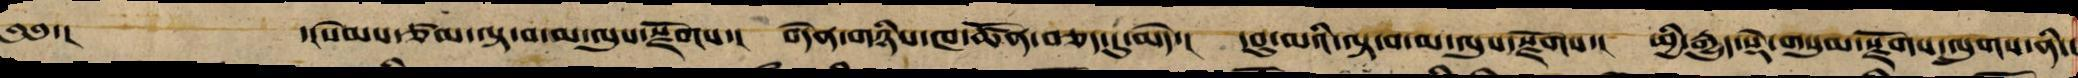༄༅་། ་།སེམས་ཙམ་ལྟ་བ་མ་ལུས་སྫོགས་། བདེན་གཉིས་ཁ་ཚོན་བཅད་དུ་མེད་། དབུ་མའི་ལྟ་བ་མ་ལུས་རྫོགས་། ཕྱི་རྒྱུད་སྡེ་གསུམ་རྫོགས་ལུགས་ནི་།
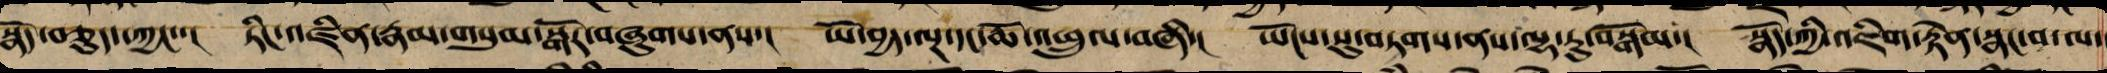སྣོད་བཅུད་ཀྱང་་། ཏིང་འཛིན་རྣམ་གསུམ་སྒོར་བཞུགས་ནས་། ཡོ་བྱད་ལྔ་དང་ཆོ་འཕྲུལ་བཞི་། ཡོངས་སུ་བཏགས་ནས་ལྷ་རུ་བསྒོམ་། སྣོད་ཀྱི་འཇིག་རྟེན་སྣང་བ་ལ་
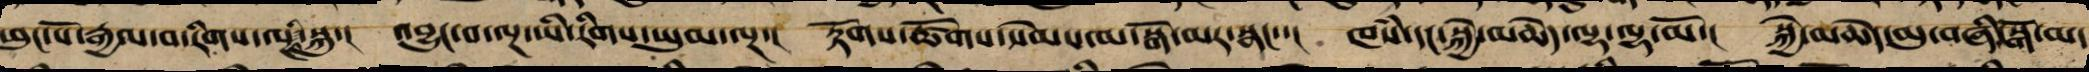ཕུང་པོ་རྒྱལ་བ་རིགས་ལྔའི་སྐུ་། འབྱུང་བ་ལྔ་ནི་རིགས་ཡུམ་ལྔ་། རྟོགས་ཚོགས་སེམས་མར་སྒོ་མར་སྣང་་། ཁཾས་དང་སྐྱེ་མཆེད་ལྷ་ལྷ་མོ་། སྐྱེ་མཆེད་མུ་བཞི་སྒོ་མ་
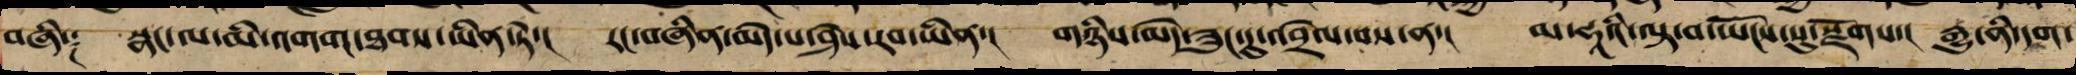བཞི༑ སྣང་ལ་མི་འགོག་ཐབས་ཡིན་ཏེ་། རང་བཞིན་མེད་པ་ཤེས་རབ་ཡིན་། གཉིས་མེད་ཐད་དུ་འབྲེལབཔས་ན་། མ་ཧཱའི་ལྟ་བ་ཡོངས་སུ་སྫོགས། རྒྱུ་ནི་དག་
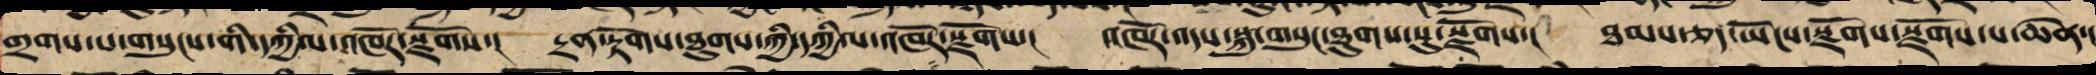གྲག་པ་གསུང་གི་དཀྱིལ་འཁོར་སྫོགས་། དྲན་རྟོགས་ཐུགས་ཀྱི་དཀྱིལ་འཁོར་སྫོགས་། འཁོར་འདས་སྐུ་གསུང་ཐུགས་སུ་སྫོགས་། ཐམས་ཅད་ཡོངས་སྫོགས་སྫོགས་པ་ཆེན་།
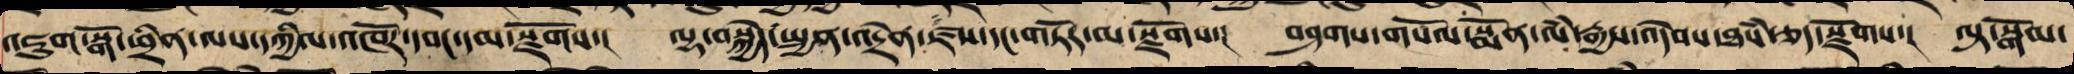འཇུག་སྒོ་ཕྲིན་ལས་དཀྱིལ་འཁོར་དབང་དམ་སྫོགས་། ལྷ་བསྐྱེད་སྤྱན་འདྲེན་ཛས་དང་གཏོར་མ་སྫོགས་། བཤགས་གསོལ་སྨོན་ལཾ་རྒྱས་འདེབས་ཐཾས་ཅད་སྫོགས་། ལྟ་སྒོམ་
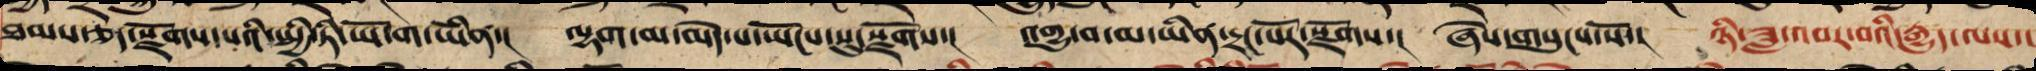ཐམས་ཅད་སྫོགས་པའི་སྤྱི་ཏི་ཡོ་ག་ཡིན་། ལྷག་མ་མེད་པ་ཡོངས་སུ་སྫོགས་། འགྱུ་བ་མ་ཡིན་དྲང་པོར་སྫོགས་། ཞེས་གསུངས་སོ་། ཉི་ཟླ་འབར་བའི་རྒྱུད་ལས་།
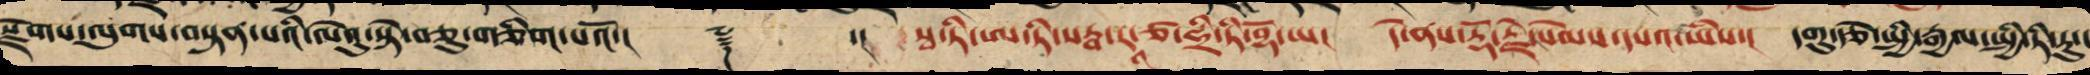སྫོགས་ལུགས་བསྟན་པའི་ལེའུ་སྟེ་བཅུ་གཅིག་པའོ་།། ༈ ་། སྭ་ཏི་ཨ་ཏི་སརྦ་རཱ་ཙ་ཧྲི་ཏི་བྷོ་ཡ། དེ་ནས་རྡོ་རྗེ་སེམས་དཔའ་ཡིས་། དགུ་རྩེ་སྤྱི་རྒྱལ་སྤྱི་ཏི་རུ་།
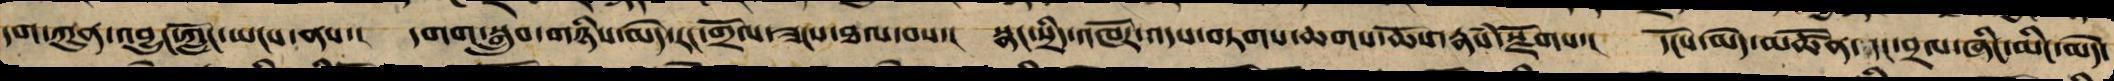དག་ཀུན་འབྱུང་ཀློང་ཡངས་ནས་། དགག་བསྒྲུབ་གཉིས་མེད་རང་གྲོལ་ཟང་ཐལ་བས་། སྣང་སྲིད་འཁོར་འདས་བཏགས་ཆགས་ཆོས་རྣཾས་སྫོགས་། དངོས་མེད་མཚོན་དང་བྲལ་ཞིང་མིང་མེད་
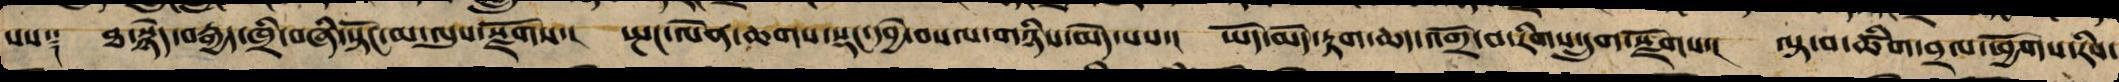པས༑ ཐ་སྙེད་བརྒྱད་ཁྲི་བཞི་སྟོང་མ་ལུས་རྫོགས་། སྤང་ལེན་ཆགས་སྡང་དབྱེ་བསལ་གཉིས་མེད་པས་། ཡོད་མེད་རྟག་ཆད་འགྲོ་བ་རིགས་དྲུག་སྫོགས་། ལྟ་བ་ཚིག་བྲལ་ཕྱོགས་རིས་
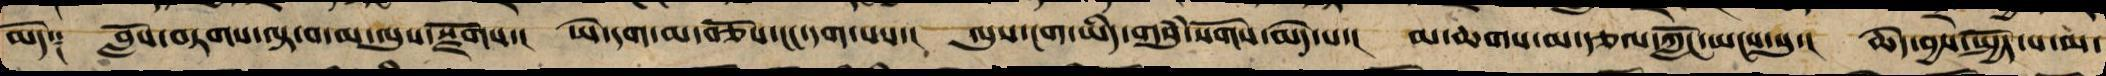མེད༑ བློས་བཏགས་ལྟ་བ་མ་ལུས་སྫོགས་། ཡེ་དག་མ་བཅོས་ངང་དག་པས་། ལུས་ངག་ཡིད་གསུཾ་སོགས་མེད་པ་། མ་ཆགས་མ་རྩལ་ཀློང་ཡངས་སུ་། ཆེད་བྱས་སྤྱོད་པ་མ་
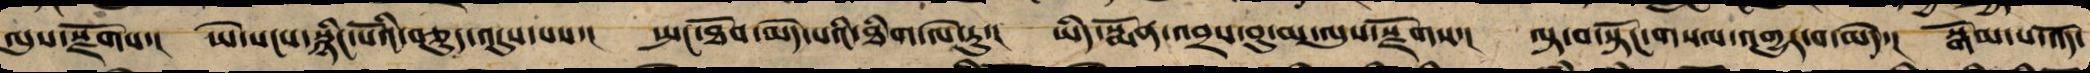ལུས་སྫོགས་། ཡེ་སངས་སྙིང་པོའི་བཅུད་འདུས་པས་། སྤང་ཐོབ་མེད་པའི་ཐིག་ལེ་རུ་། ཡིད་སྨོན་འབྲས་བུ་མ་ལུས་རྫོགས་། ལྟ་བ་སྟོང་གསལ་འགྱུར་བ་མེད་། སྒོམ་པ་འོད་
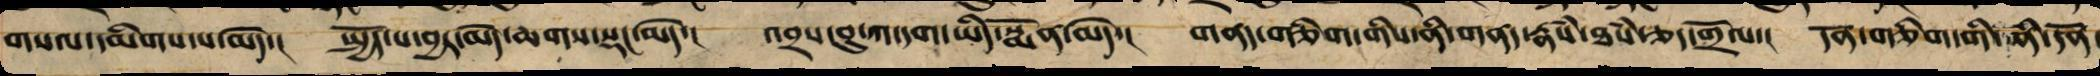གསལ་དམིགས་པ་མེད་། སྤྱོད་པ་བྱར་མེད་ཆགས་སྡང་མེད་། འབྲས་བུ་ཀ་དག་ཡིད་སྨོན་མེད་། གནད་གཅིག་གིས་ནི་གནད་རྣཾས་ཐཾས་ཅད་གྲོལ་། དོན་གཅིག་གི་ནི་དོན
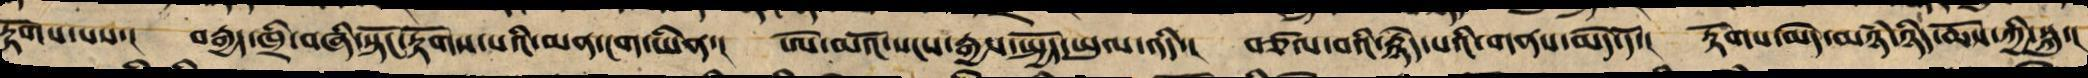རྟོགས་པས་། བརྒྱད་ཁྲི་བཞི་སྟོང་རྟོགས་པའི་མན་ངག་ཡིན་། ཨེ་མའོ་སངས་རྒྱས་སྤྱོད་ཡུལ་འདི་། བཙལ་བས་རྙེད་པའི་གནས་མེད་དོ་། རྟོགས་མེད་མཉཾ་ཉིད་ཆོས་ཀྱི་སྐུ་།
